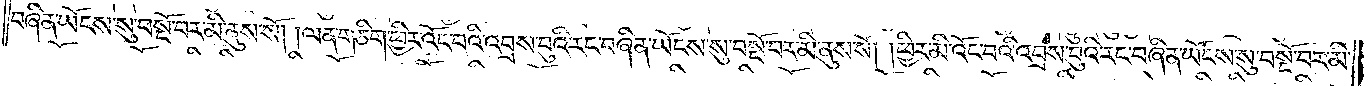བཞིན་ཡོངས་སུ་བསྔོ་བར་མི་ནུས་སོ། །ལན་གཅིག་ཕྱིར་འོང་བའི་འབྲས་བུའི་རང་བཞིན་ཡོངས་སུ་བསྔོ་བར་མི་ནུས་སོ། །ཕྱིར་མི་འོང་བའི་འབྲས་བུའི་རང་བཞིན་ཡོངས་སུ་བསྔོ་བར་མི་
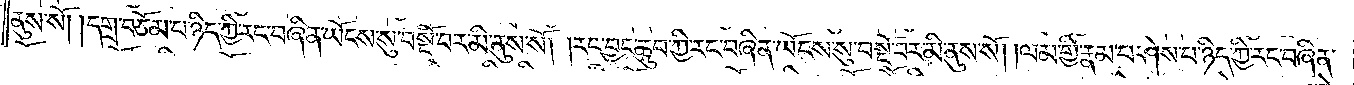ནུས་སོ། །དགྲ་བཅོམ་པ་ཉིད་ཀྱི་རང་བཞིན་ཡོངས་སུ་བསྔོ་བར་མི་ནུས་སོ། །རང་བྱང་ཆུབ་ཀྱི་རང་བཞིན་ཡོངས་སུ་བསྔོ་བར་མི་ནུས་སོ། །ལམ་གྱི་རྣམ་པ་ཤེས་པ་ཉིད་ཀྱི་རང་བཞིན་
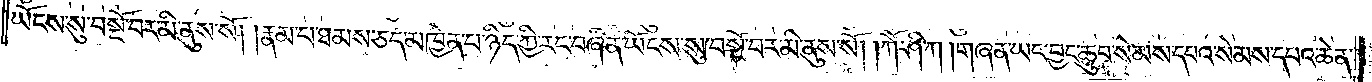ཡོངས་སུ་བསྔོ་བར་མི་ནུས་སོ། །རྣམ་པ་ཐམས་ཅད་མཁྱེན་པ་ཉིད་ཀྱི་རང་བཞིན་ཡོངས་སུ་བསྔོ་བར་མི་ནུས་སོ། །ཀཽ་ཤི་ཀ། གཞན་ཡང་བྱང་ཆུབ་སེམས་དཔའ་སེམས་དཔའ་ཆེན་
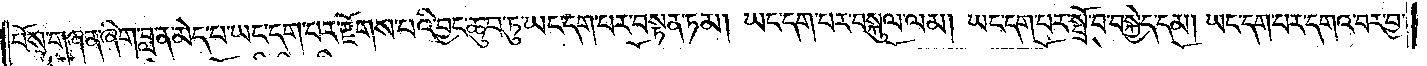པོས་གཞན་ཞིག་བླ་ན་མེད་པ་ཡང་དག་པར་རྫོགས་པའི་བྱང་ཆུབ་ཏུ་ཡང་དག་པར་བསྟན་ཏམ། ཡང་དག་པར་བསྐུལ་ལམ། ཡང་དག་པར་སྤྲོ་བ་བསྐྱེད་དམ། ཡང་དག་པར་དགའ་བར་བྱ་
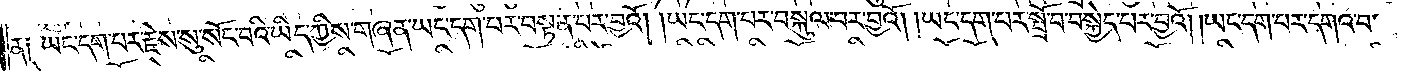ན༑ ཡང་དག་པར་རྗེས་སུ་སོང་བའི་ཡིད་ཀྱིས་གཞན་ཡང་དག་པར་བསྟན་པར་བྱའོ། །ཡང་དག་པར་བསྐུལ་བར་བྱའོ། །ཡང་དག་པར་སྤོང་བསྐྱེད་པ་བྱའོ། །ཡང་དག་པར་དགའ་བ་
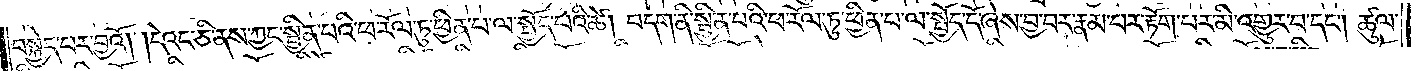བསྐྱེད་པར་བྱའོ། །དེའང་ཅི་ནས་ཀྱང་སྦྱིན་པའི་ཕ་རོལ་ཏུ་ཕྱིན་པ་ལ་སྤྱོད་པའི་ཚེ། བདག་ནི་སྦྱིན་པའི་ཕ་རོལ་ཏུ་ཕྱིན་པ་ལ་སྤྱོད་དོ་ཞེས་བྱ་བར་རྣམ་པར་རྟོག་པར་མི་འགྱུར་བ་དང༌། ཚུལ་
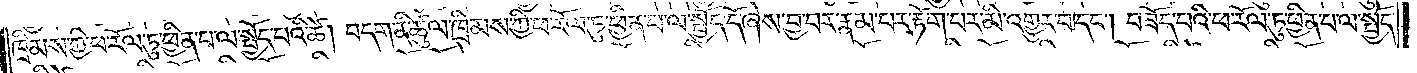ཁྲིམས་ཀྱི་ཕ་རོལ་ཏུ་ཕྱིན་པ་ལ་སྤྱོད་པའི་ཚེ། བདག་ནི་ཚུལ་ཁྲིམས་ཀྱི་ཕ་རོལ་ཏུ་ཕྱིན་པ་ལ་སྤྱོད་དོ་ཞེས་བྱ་བར་རྣམ་པར་རྟོག་པར་མི་འགྱུར་བ་དང༌། བཟོད་པའི་ཕ་རོལ་ཏུ་ཕྱིན་པ་ལ་སྤྱོད་
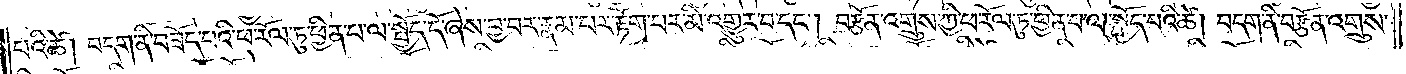པའི་ཚེ། བདག་ནི་བཟོད་པའི་ཕ་རོལ་ཏུ་ཕྱིན་པ་ལ་སྤྱོད་དོ་ཞེས་བྱ་བར་རྣམ་པར་རྟོག་པར་མི་འགྱུར་བ་དང༌། བརྩོན་འགྲུས་ཀྱི་ཕ་རོལ་ཏུ་ཕྱིན་པ་ལ་སྤྱོད་པའི་ཚེ། བདག་ནི་བརྩོན་འགྲུས་
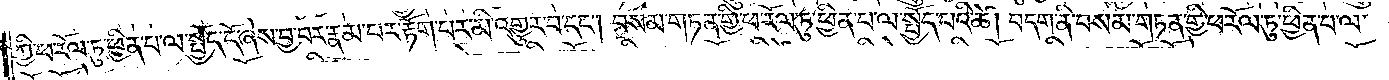ཀྱི་ཕ་རོལ་ཏུ་ཕྱིན་པ་ལ་སྤྱོད་དོ་ཞེས་བྱ་བར་རྣམ་པར་རྟོག་པར་མི་འགྱུར་བ་དང༌། བསམ་གཏན་གྱི་ཕ་རོལ་ཏུ་ཕྱིན་པ་ལ་སྤྱོད་པའི་ཚེ། བདག་ནི་བསམ་གཏན་གྱི་ཕ་རོལ་ཏུ་ཕྱིན་པ་ལ་
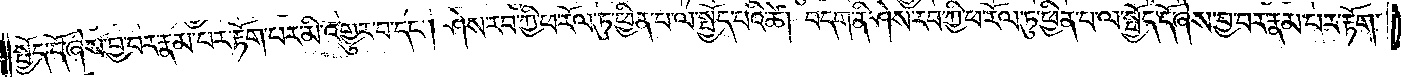སྤྱོད་དོ་ཞེས་བྱ་བར་རྣམ་པར་རྟོག་པར་མི་འགྱུར་བ་དང༌། ཤེས་རབ་ཀྱི་ཕ་རོལ་ཏུ་ཕྱིན་པ་ལ་སྤྱོད་པའི་ཚེ། བདག་ནི་ཤེས་རབ་ཀྱི་ཕ་རོལ་ཏུ་ཕྱིན་པ་ལ་སྤྱོད་དོ་ཞེས་བྱ་བར་རྣམ་པར་རྟོག་
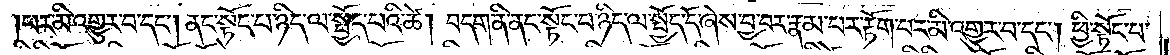པར་མི་འགྱུར་བ་དང༌། ནང་སྟོང་པ་ཉིད་ལ་སྤྱོད་པའི་ཚེ། བདག་ནི་ནང་སྟོང་པ་ཉིད་ལ་སྤྱོད་དོ་ཞེས་བྱ་བར་རྣམ་པར་རྟོག་པར་མི་འགྱུར་བ་དང༌། ཕྱི་སྟོང་པ་
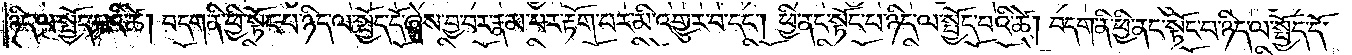ཉིད་ལ་སྤྱོད་པའི་ཚེ། བདག་ནི་ཕྱི་སྟོང་པ་ཉིད་ལ་སྤྱོད་དོ་ཞེས་བྱ་བར་རྣམ་པར་རྟོག་པར་མི་འགྱུར་བ་དང༌། ཕྱི་ནང་སྟོང་པ་ཉིད་ལ་སྤྱོད་པའི་ཚེ། བདག་ནི་ཕྱི་ནང་སྟོང་པ་ཉིད་ལ་སྤྱོད་དོ་
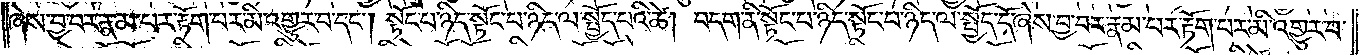ཞེས་བྱ་བར་རྣམ་པར་རྟོག་པར་མི་འགྱུར་བ་དང༌། སྟོང་པ་ཉིད་སྟོང་པ་ཉིད་ལ་སྤྱོད་པའི་ཚེ། བདག་ནི་སྟོང་པ་ཉིད་སྟོང་པ་ཉིད་ལ་སྤྱོད་དོ་ཞེས་བྱ་བར་རྣམ་པར་རྟོག་པར་མི་འགྱུར་བ་
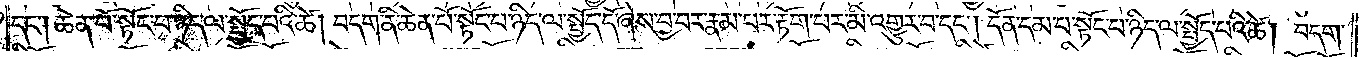དང༌། ཆེན་པོ་སྟོང་པ་ཉིད་ལ་སྤྱོད་པའི་ཚེ། བདག་ནི་ཆེན་པོ་སྟོང་པ་ཉིད་ལ་སྤྱོད་དོ་ཞེས་བྱ་བར་རྣམ་པར་རྟོག་པར་མི་འགྱུར་བ་དང༌། དོན་དམ་པ་སྟོང་པ་ཉིད་ལ་སྤྱོད་པའི་ཚེ། བདག་
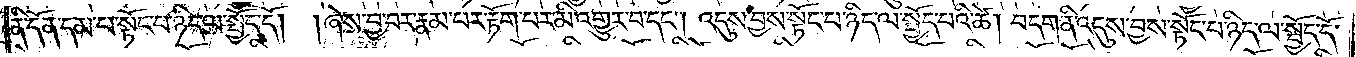ནི་དོན་དམ་པ་སྟོང་པ་ཉིད་ལ་སྤྱོད་དོ། །ཞེས་བྱ་བར་རྣམ་པར་རྟོག་པར་མི་འགྱུར་བ་དང༌། འདུས་བྱས་སྟོང་པ་ཉིད་ལ་སྤྱོད་པའི་ཚེ། བདག་ནི་འདུས་བྱས་སྟོང་པ་ཉིད་ལ་སྤྱོད་དོ་
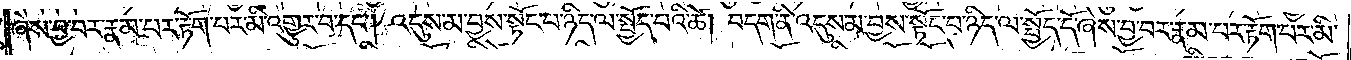ཞེས་བྱ་བར་རྣམ་པར་རྟོག་པར་མི་འགྱུར་བ་དང༌། འདུས་མ་བྱས་སྟོང་པ་ཉིད་ལ་སྤྱོད་པའི་ཚེ། བདག་ནི་འདུས་མ་བྱས་སྟོང་པ་ཉིད་ལ་སྤྱོད་དོ་ཞེས་བྱ་བར་རྣམ་པར་རྟོག་པར་མི་
